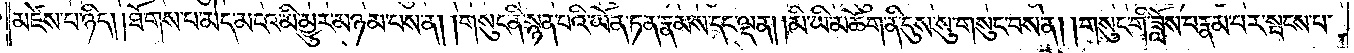མཛེས་པ་ཉིད། །ཐོགས་པ་མེད་མངའ་མི་མྱུར་མཉམ་པས་ན། །གསུང་ནི་སྙན་པའི་ཡོན་ཏན་རྣམས་དང་ལྡན། །མི་ཡི་མཆོག་ནི་དུས་སུ་གསུང་བས་ན། །གསུང་གི་ཟློས་པ་རྣམ་པར་སྤངས་པ་
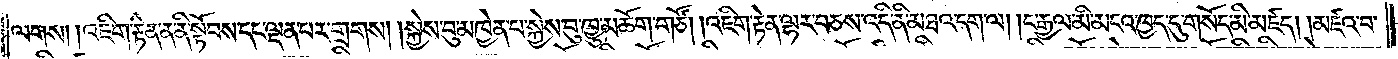ལགས། །འཇིག་རྟེན་ན་ནི་སྟོབས་དང་ལྡན་པར་གྲགས། །སྐྱེས་བུ་མཁྱེན་པ་སྐྱེས་བུ་ཁྱུ་མཆོག་གཙོ། །འཇིག་རྟེན་ལྷར་བཅས་འདི་ནི་མཐའ་དག་ལ། །ང་རྒྱལ་མི་མངའ་ཁྱད་དུ་གསོད་མི་མཛད། །མཛའ་བ་
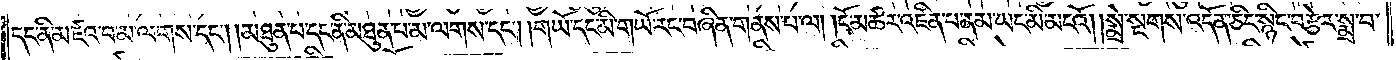དང་ནི་མཛའ་བ་མ་ལགས་དང༌། །མཐུན་པ་དང་ནི་མཐུན་པ་མ་ལགས་དང༌། །གཡོ་དང་མི་གཡོ་རང་བཞིན་གནས་པ་ལ། །ངོ་མཚར་འཛིན་པ་ནམ་ཡང་མི་མངའོ། །སྨྲེ་སྔགས་འདོན་ཅིང་སྙིང་བརྩེར་སྨྲ་བ་
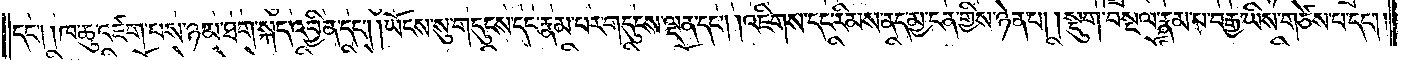དང༌། །ཁ་ཆུ་འཛག་པས་ཉམ་ཐག་སྐད་འབྱིན་དང༌། །ཡོངས་སུ་གདུངས་དང་རྣམ་པར་གདུངས་ལྡན་དང༌། །འཇིགས་དང་རིམས་ནད་མྱ་ངན་གྱིས་ཉེན་པ། །སྡུག་བསྔལ་རྣམ་པ་བརྒྱ་ཡིས་གཙེས་པ་དང༌།
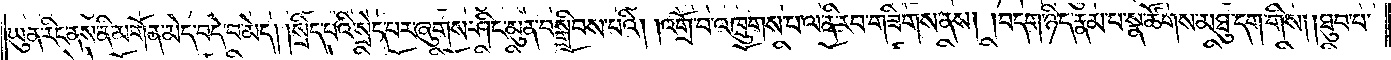ཡུན་རིང་ནས་ནི་མགོན་མེད་བདེ་བ་མེད། །སྲིད་པའི་སྲེད་པར་ཞུགས་ཤིང་མུན་བསྒྲིབས་པའི། །འགྲོ་བ་འཁྲུགས་པ་ལ་ནི་རབ་གཟིགས་ནས། །བདག་ཉིད་རྣམ་པ་སྣ་ཚོགས་མཐུ་དག་གིས། །ཐུབ་པ་
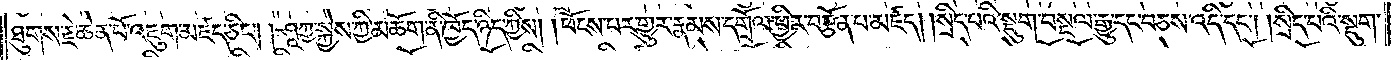ཐུགས་རྗེ་ཆེན་པོ་འཇུག་མཛད་ཅིང༌། །ཤཱཀྱ་སྐྱེས་ཀྱི་མཆོག་ནི་ཁྱོད་ཉིད་ཀྱིས། །ཕོངས་པར་གྱུར་རྣམས་དགྲོལ་ཕྱིར་བརྩོན་པ་མཛད། །སྲིད་པའི་སྡུག་བསྔལ་རྒྱུ་དང་བཅས་འདི་དང༌། །སྲིད་པའི་སྡུག་
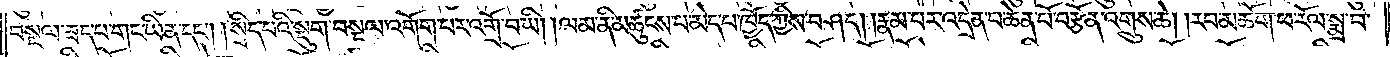བསྔལ་ཟད་པ་གང་མིན་དང༌། །སྲིད་པའི་སྡུག་བསྔལ་འགོག་པར་འགྲོ་བ་ཡི། །ལམ་ནི་མཚུངས་པ་མེད་པ་ཁྱོད་ཀྱིས་བཤད། །རྣམ་པར་འདྲེན་པ་ཆེན་པོ་བརྩོན་འགྲུས་ཆེ། །རབ་མཆོག་ཕ་རོལ་སྨྲ་བ་
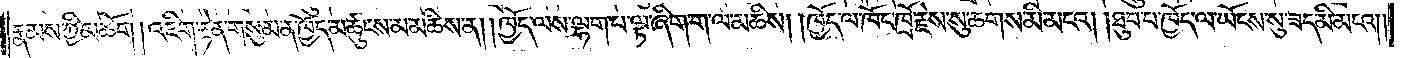རྣམས་ཀྱི་མཆོག །འཇིག་རྟེན་གསུམ་ན་ཁྱོད་མཚུངས་མ་མཆིས་ན། །ཁྱོད་ལས་ལྷག་པ་ལྟ་ཞིག་ག་ལ་མཆིས། །ཁྱོད་ལ་ཁོང་ཁྲོ་རྗེས་སུ་ཆགས་མི་མངའ། །ཐུབ་པ་ཁྱོད་ལ་ཡོངས་སུ་ཟད་མི་མངའ༎
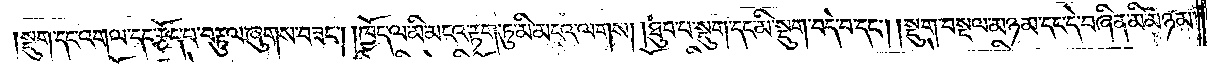།སྡུག་དང་འགལ་དང་རྩོད་པ་བརྟུལ་ཞུགས་བཟང༌། །ཁྱོད་ལ་མི་མངའ་རྟག་ཏུ་མི་མངའ་ལགས། །ཐུབ་པ་སྡུག་དང་མི་སྡུག་བདེ་བ་དང༌། །སྡུག་བསྔལ་མཉམ་དང་དེ་བཞིན་མི་མཉམ་
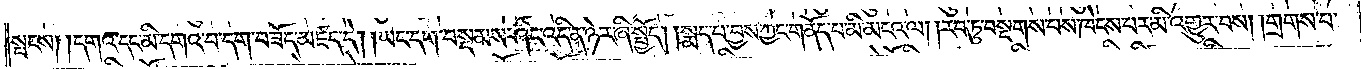སྤངས། །དགའ་དང་མི་དགའ་བ་དག་བཟོད་མཛད་དེ། །ཡང་དག་བསྡམས་ཤིང་འདི་ན་ཉེར་ཞི་སྤྱོད། །སྨད་པ་བྱས་ཀྱང་གནོད་པ་མི་མངའ་ལ། །རབ་ཏུ་བསྔགས་པས་ཁེངས་པར་མི་འགྱུར་པས། །གྲགས་པ་
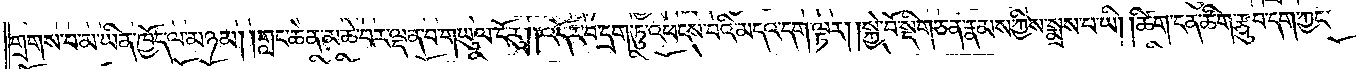གྲགས་པ་མ་ཡིན་ཁྱོད་ལ་མཉམ། །གླང་ཆེན་མཆེ་བར་ལྡན་པ་གཡུལ་ངོ་རུ། །འདོར་བ་དྲག་ཏུ་འཕངས་པའི་མདའ་དག་ལྟར། །སྐྱེ་བོ་སྡིག་ཅན་རྣམས་ཀྱིས་སྨྲས་པ་ཡི། །ཚིག་ངན་ཚིག་རྩུབ་དག་ཀྱང་
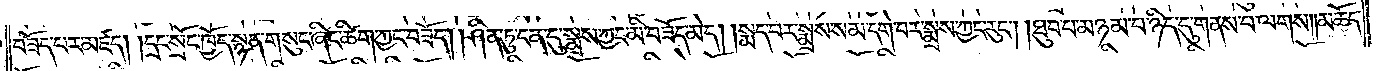བཟོད་པར་མཛད། །དྲང་སྲོང་ཁྱོད་སྙན་གསུང་ཞིང་ཚིག་ཀྱང་བཟོད། །ཤིན་ཏུ་ངན་དུ་སྨྲས་ཀྱང་མི་བཟོད་མེད། །སྨད་པར་སྨྲས་སམ་དགེ་བར་སྨྲས་ཀྱང་རུང༌། །ཐུབ་པ་མཉམ་པ་ཉིད་དུ་གནས་པ་ལགས། །མཆོད་
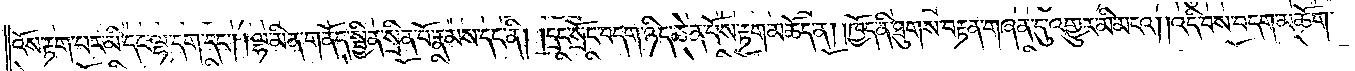འོས་རྟག་པར་མི་དང་ལྷ་དག་དང༌། །ལྷ་མིན་གནོད་སྦྱིན་སྲིན་པོ་རྣམས་དང་ནི། །དྲང་སྲོང་བདག་ཉིད་ཆེན་པོས་རྟག་མཆོད་ན། །ཁྱོད་ནི་ཐུགས་བརྟན་གཞན་དུ་འགྱུར་མི་མངའ། །འདི་བས་བདག་མཆོག་
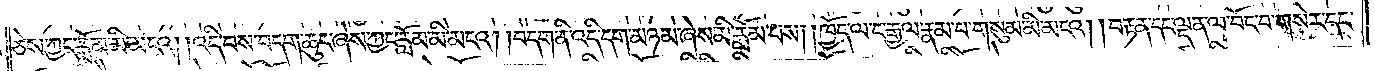ཅེས་ཀྱང་རློམ་མི་མངའ། །འདི་བས་བདག་ཆུང་ཞེས་ཀྱང་རློམ་མི་མངའ། །བདག་ནི་འདི་དག་མཉམ་ཞེས་མི་རློམ་པས། །ཁྱོད་ལ་ང་རྒྱལ་རྣམ་པ་གསུམ་མི་མངའ། །བརྟན་དང་ལྡན་པ་བོང་བ་གསེར་དང་
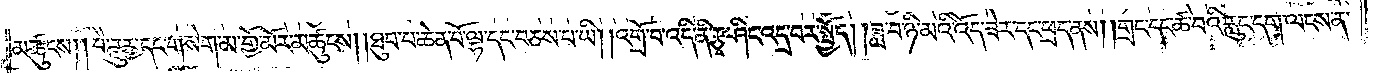མཚུངས། །བཻ་ཌཱུརྱ་དང་གསེག་མ་གྱོ་མོར་མཚུངས། །ཐུབ་པ་ཆེན་པོ་ལྷ་དང་བཅས་པ་ཡི། །འགྲོ་བ་འདི་ནི་རྩྭ་ཤིང་འདྲ་བར་སྤྱོད། །ཟླ་བ་ཉི་མའི་འོད་ཟེར་དང་ཕྲད་ནས། །གྲང་དང་ཚ་བའི་རླུང་དག་ལངས་ན་
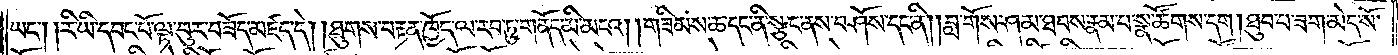ཡང༌། །རི་ཡི་དབང་པོ་ལྟ་བུར་བཟོད་མཛད་དེ། །ཐུགས་བརྟན་ཁྱོད་ལ་རབ་ཏུ་གནོད་མི་མངའ། །གཟིམས་ཆ་དང་ནི་སྩང་ནས་བཤོས་དང་ནི། །བླ་གོས་ཤམ་ཐབས་རྣམ་པ་སྣ་ཚོགས་དག །ཐུབ་པ་ཟག་མེད་སོ། །
